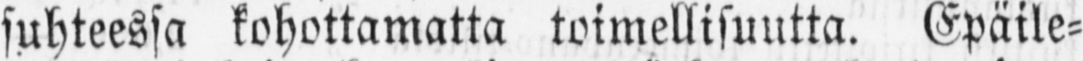suhteessa kohottamatta toimellisuutta. Epäile-
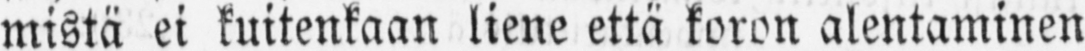mistä ei kuitenkaan liene että koron alentaminen
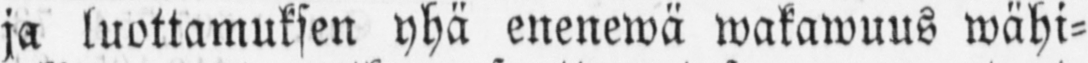ja luottamuksen yhä enenewä wakawuus wähi-
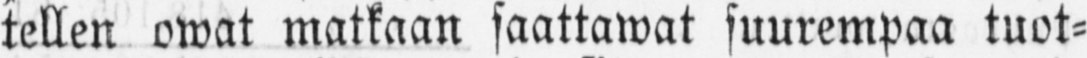tellen owat matkaan saattawat suurempaa tuot-
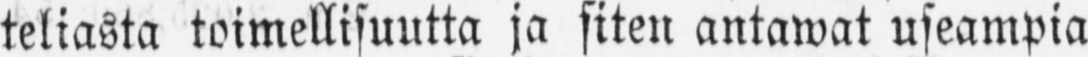teliasta toimellisuutta ja siten antawat useampia
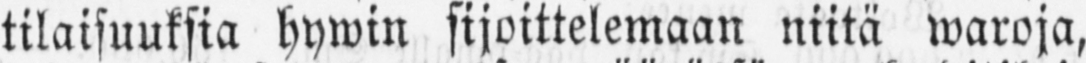tilaisuuksia hywin sijoittelemaan niitä waroja,
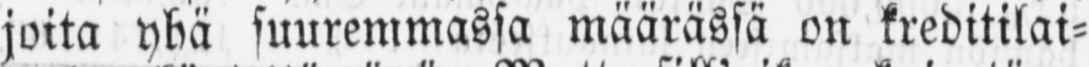joita yhä suuremmassa määrässä on kreditilai-
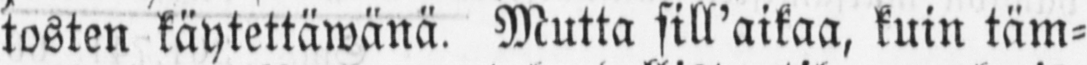tosten käytettäwänä. Mutta sill’aikaa, kuin täm-
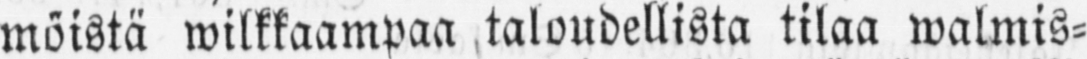möistä wilkkaampaa taloudellista tilaa walmis-
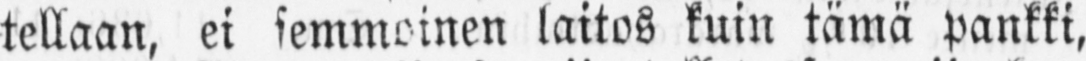tellaan, ei semmoinen laitos kuin tämä pankki,
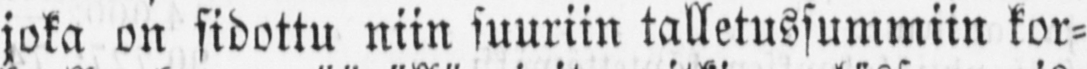joka on sidottu niin suuriin talletussummiin kor-
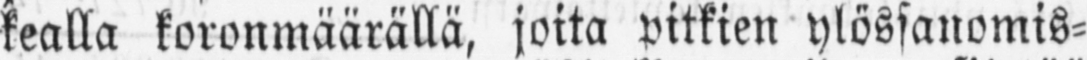kealla koronmäärällä, joita pitkien ylössanomis-
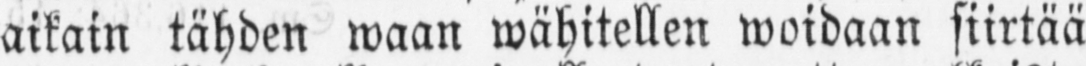aikain tähden waan wähitellen woidaan siirtää
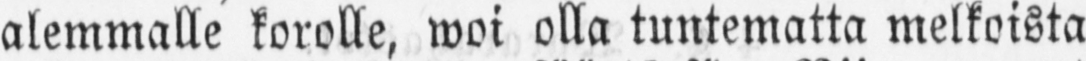alemmalle korolle, woi olla tuntematta melkoista
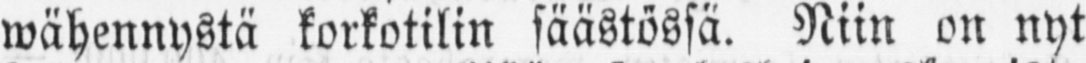wähennystä korkotilin säästössä. Niin on nyt
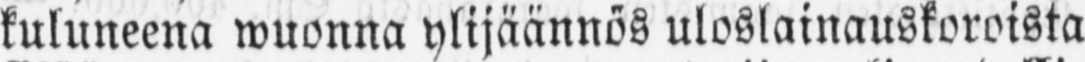kuluneena wuonna ylijäännös uloslainauskoroista
